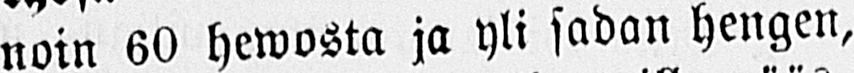noin 60 hewosta ja yli sadan hengen,
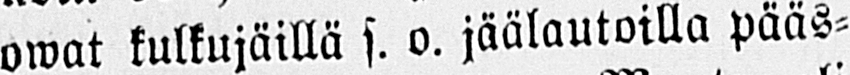owat kulkujäillä s.o. jäälautoilla pääs-
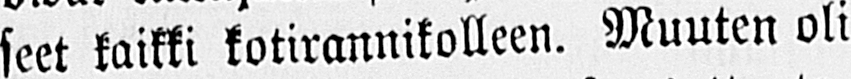seet kaikki kotirannikolleen. Muuten oli
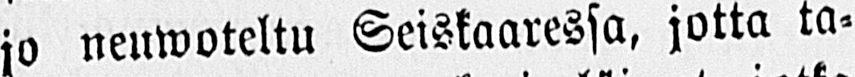jo neuwoteltu Seiskaaressa, jotta ta-
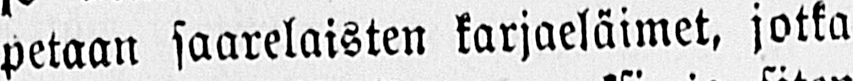petaan saarelaisten karjaeläimet, jotka
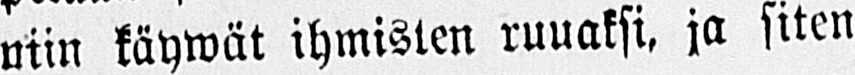niin käywät ihmisten ruuaksi, ja siten
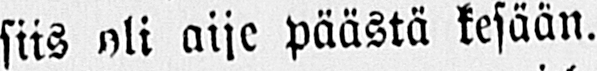siis oli aije päästä kesään.
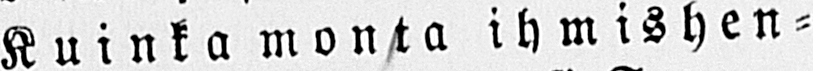Kuinka monta ihmishen-
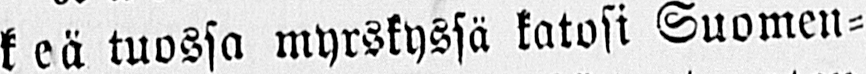keä tuossa myrskyssä katosi Suomen-
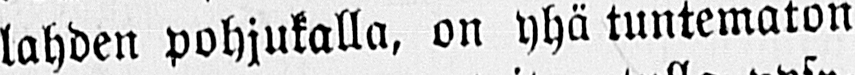lahden pohjukalla, on yhä tuntematon
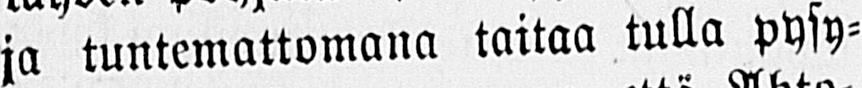ja tuntemattomana taitaa tulla pysy-
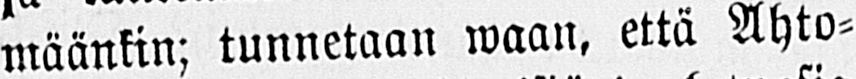määnkin; tunnetaan waan, että Ahto-
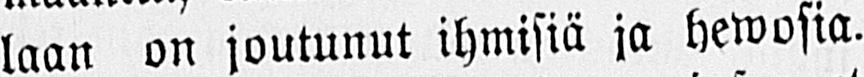laan on joutunut ihmisiä ja hewosia.
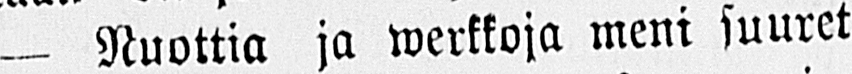— Nuottia ja werkkoja meni suuret
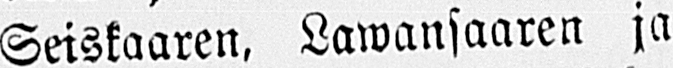oukot Seiskaaren, Lawansaaren ja
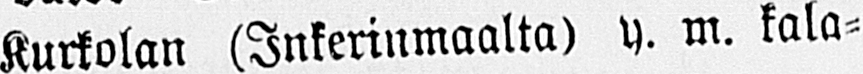Kurkolan (Inkerinmaalta) y. m. kala-
